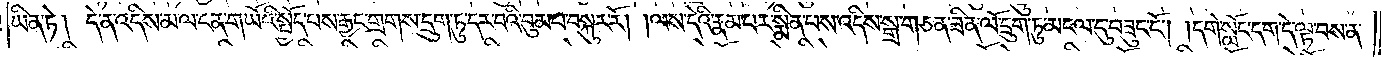ཡིན་ཏེ། དེ་ན་འདིས་མ་ལ་ངན་གཡོའི་སྤྱོད་པས་རྒྱང་གྲགས་དྲུག་ཏུ་དར་བའི་བུམ་པ་བསྐུར་རོ། །ལས་དེའི་རྣམ་པར་སྨིན་པས་འདིས་སྒྲ་གཅན་ཟིན་ལོ་དྲུག་ཏུ་མངལ་དུ་བཟུང་ངོ༌། །དགེ་སློང་དག་དེ་ལྟ་བས་ན་
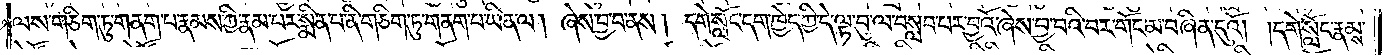ལས་གཅིག་ཏུ་གནག་པ་རྣམས་ཀྱི་རྣམ་པར་སྨིན་པ་ནི་གཅིག་ཏུ་གནག་པ་ཡིན་ལ། ཞེས་བྱ་བ་ནས། དགེ་སློང་དག་ཁྱེད་ཀྱི་དེ་ལྟ་བུ་ལ་བསླབ་པར་བྱའོ་ཞེས་བྱ་བའི་བར་གོང་མ་བཞིན་དུའོ། །དགེ་སློང་རྣམས་
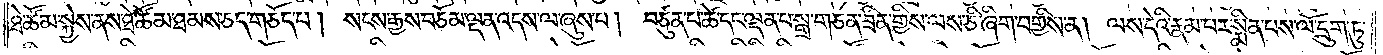ཐེ་ཚོམ་སྐྱེས་ནས་ཐེ་ཚོམ་ཐམས་ཅད་གཅོད་པ། སངས་རྒྱས་བཅོམ་ལྡན་འདས་ལ་ཞུས་པ། བཙུན་པ་ཚེ་དང་ལྡན་པ་སྒྲ་གཅན་ཟིན་གྱིས་ལས་ཅི་ཞིག་བགྱིས་ན། ལས་དེའི་རྣམ་པར་སྨིན་པས་ལོ་དྲུག་ཏུ་
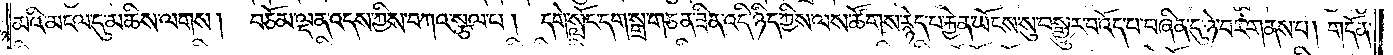མའི་མངལ་དུ་མཆིས་ལགས། བཅོམ་ལྡན་འདས་ཀྱིས་བཀའ་སྩལ་པ། དགེ་སློང་དག་སྒྲ་ཅན་ཟིན་འདི་ཉིད་ཀྱིས་ལས་ཚོགས་རྙེད་པ་རྐྱེན་ཡོངས་སུ་བསྒྱུར་བ་འོད་པ་བཞིན་དུ་ཉེ་བར་གནས་པ། གདོན་
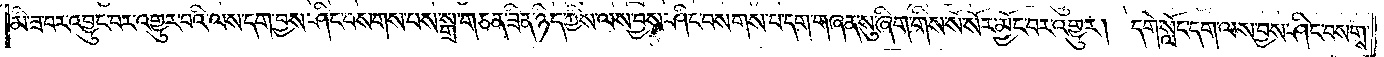མི་ཟ་བར་འབྱུང་བར་འགྱུར་བའི་ལས་དག་བྱས་ཤིང་བསགས་པས་སྒྲ་གཅན་ཟིན་ཉིད་ཀྱིས་ལས་བྱས་ཤིང་བསགས་པ་དག་གཞན་སུ་ཞིག་གིས་སོ་སོར་མྱོང་བར་འགྱུར། དགེ་སློང་དག་ལས་བྱས་ཤིང་བསགས་
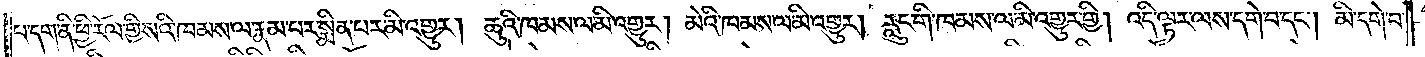པ་དག་ནི་ཕྱི་རོལ་གྱི་སའི་ཁམས་ལ་རྣམ་པར་སྨིན་པར་མི་འགྱུར། ཆུའི་ཁམས་ལ་མི་འགྱུར། མེའི་ཁམས་ལ་མི་འགྱུར། རླུང་གི་ཁམས་ལ་མི་འགྱུར་གྱི། འདི་ལྟར་ལས་དགེ་བ་དང༌། མི་དགེ་བ་
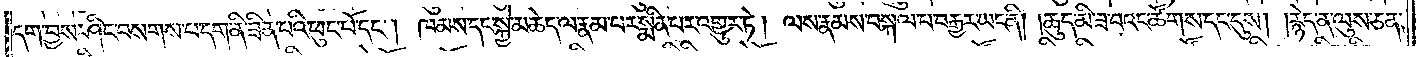དག་བྱས་ཤིང་བསགས་པ་དག་ནི་ཟིན་པའི་ཕུང་པོ་དང༌། ཁམས་དང་སྐྱེ་མཆེད་ལ་རྣམ་པར་སྨིན་པར་འགྱུར་ཏེ། ལས་རྣམས་བསྐལ་པ་བརྒྱར་ཡང་ནི། །ཆུད་མི་ཟ་བའང་ཚོགས་དང་དུས། །རྙེད་ན་ལུས་ཅན་
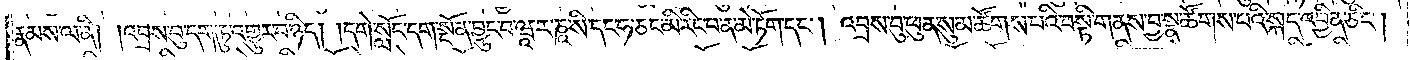རྣམས་ལ་ནི། །འབྲས་བུ་དག་ཏུ་འགྱུར་བ་ཉིད། །དགེ་སློང་དག་སྔོན་བྱུང་བ་ཝཱ་ར་ཎཱ་སི་དང་ཧ་ཅང་མི་རིང་བ་ན་མེ་ཏོག་དང༌། འབྲས་བུ་ཕུན་སུམ་ཚོགས་པའི་བསྟི་གནས་བྱ་སྣ་ཚོགས་པའི་སྐད་འབྱིན་ཅིང༌།
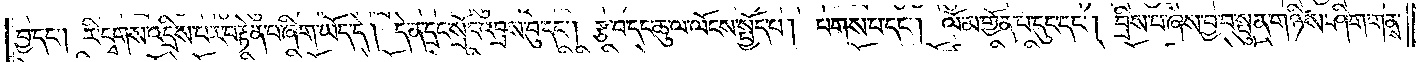བྱ་དང༌། རི་དྭགས་འདྲིས་པར་བརྟེན་པ་ཞིག་ཡོད་དེ། དེ་ན་དྲང་སྲོང་འབྲས་བུ་དང༌། རྩ་བ་དང་ཆུ་ལ་ལོངས་སྤྱོད་པ། པགས་པ་དང༌། ལོ་མ་གྱོན་པ་དུང་དང༌། བྲིས་པ་ཞེས་བྱ་བ་སྤུན་གཉིས་ཤིག་གནས་
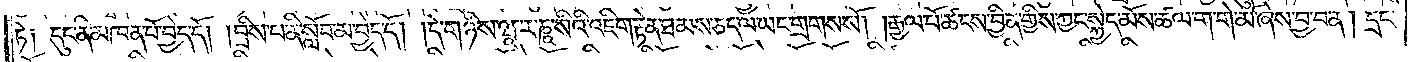ཏེ། དུང་ནི་མཁན་པོ་བྱེད་དོ། །བྲིས་པ་ནི་སློབ་མ་བྱེད་དོ། །དེ་གཉིས་ཝཱ་ར་ཎཱ་སིའི་འཇིག་རྟེན་ཐམས་ཅད་ལ་ཡང་གྲགས་སོ། །རྒྱལ་པོ་ཚངས་བྱིན་གྱིས་ཀྱང་སྐྱེད་མོས་ཚལ་ག་གེ་མོ་ཞེས་བྱ་བ་ན། དྲང་
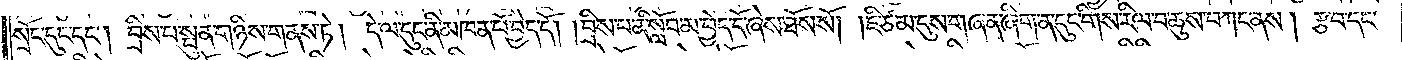སྲོང་དུང་དང༌། བྲིས་པ་སྤུན་གཉིས་གནས་ཏེ། དེ་ལ་དུང་ནི་མཁན་པོ་བྱེད་དོ། །བྲིས་པ་ནི་སློབ་མ་བྱེད་དོ་ཞེས་ཐོས་སོ། །ཇི་ཙམ་དུས་གཞན་ཞིག་ན་དུང་གིས་རིལ་བ་ཆུས་བཀང་ནས། རྩ་བ་དང་
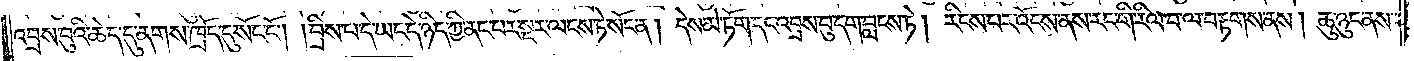འབྲས་བུའི་ཆེད་དུ་ནགས་ཁྲོད་དུ་སོང་ངོ༌། །བྲིས་པ་དེ་ཡང་དེ་ཉིད་ཀྱི་ནང་པར་སྔར་ལངས་ཏེ་སོང་ན། དེས་མེ་ཏོག་དང་འབྲས་བུ་དག་བླངས་ཏེ། རིངས་པར་འོངས་ནས་རང་གི་རིལ་བ་ལ་བརྟགས་ནས། ཆུ་ཉུང་ནས་
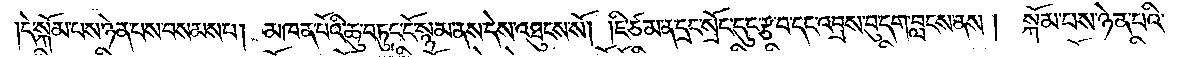དེ་སྐོམ་པས་ཉེན་པས་བསམས་པ། མཁན་པོའི་ཆུ་བཏུང་ངོ་སྙམ་ནས་དེས་འཐུངས་སོ། །ཇི་ཙམ་ན་དྲང་སྲོང་དུང་རྩ་བ་དང་འབྲས་བུ་དག་བླངས་ནས། སྐོམ་པས་ཉེན་པའི་
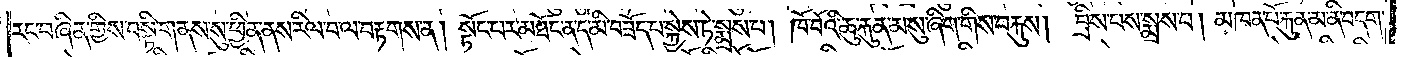རང་བཞིན་གྱིས་བསྟི་གནས་སུ་ཕྱིན་ནས་རིལ་བ་ལ་བརྟགས་ན། སྟོང་པར་མཐོང་ན་དེ་མི་བཟོད་པ་སྐྱེས་ཏེ་སྨྲས་པ། ཁོ་བོའི་ཆུ་རྐུན་མ་སུ་ཞིག་གིས་བརྐུས། བྲིས་པས་སྨྲས་པ། མཁན་པོ་རྐུན་མ་ནི་བདག་
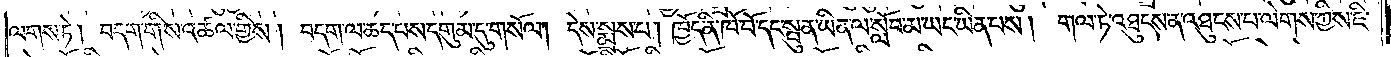ལགས་ཏེ། བདག་གིས་འཚལ་གྱིས། བདག་ལ་ཆད་པས་དགུམ་དུ་གསོལ། དེས་སྨྲས་པ། ཁྱོད་ནི་ཁོ་བོ་དང་སྤུན་ཡིན་ལ་སློབ་མ་ཡང་ཡིན་པས། གལ་ཏེ་འཐུངས་ན་འཐུངས་པ་ལེགས་ཀྱིས་ཇི་
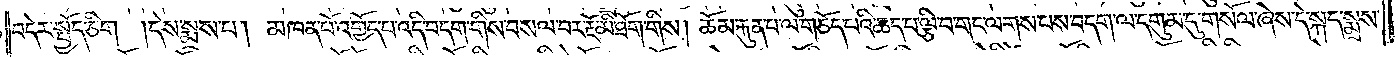བདེར་སྤྱོད་ཅིག །ངེས་སྨྲས་པ། མཁན་པོ་འགྱོད་པ་འདི་བདག་གིས་བསལ་བས་རྔོ་མི་ཐོག་གིས། ཆོམ་རྐུན་པ་ལ་གཅོད་པའི་ཆད་པ་ལྕི་བ་གང་ལགས་པས་བདག་ལ་དགུམ་དུ་གསོལ་ཞེས་དེ་སྐད་སྨྲས་
